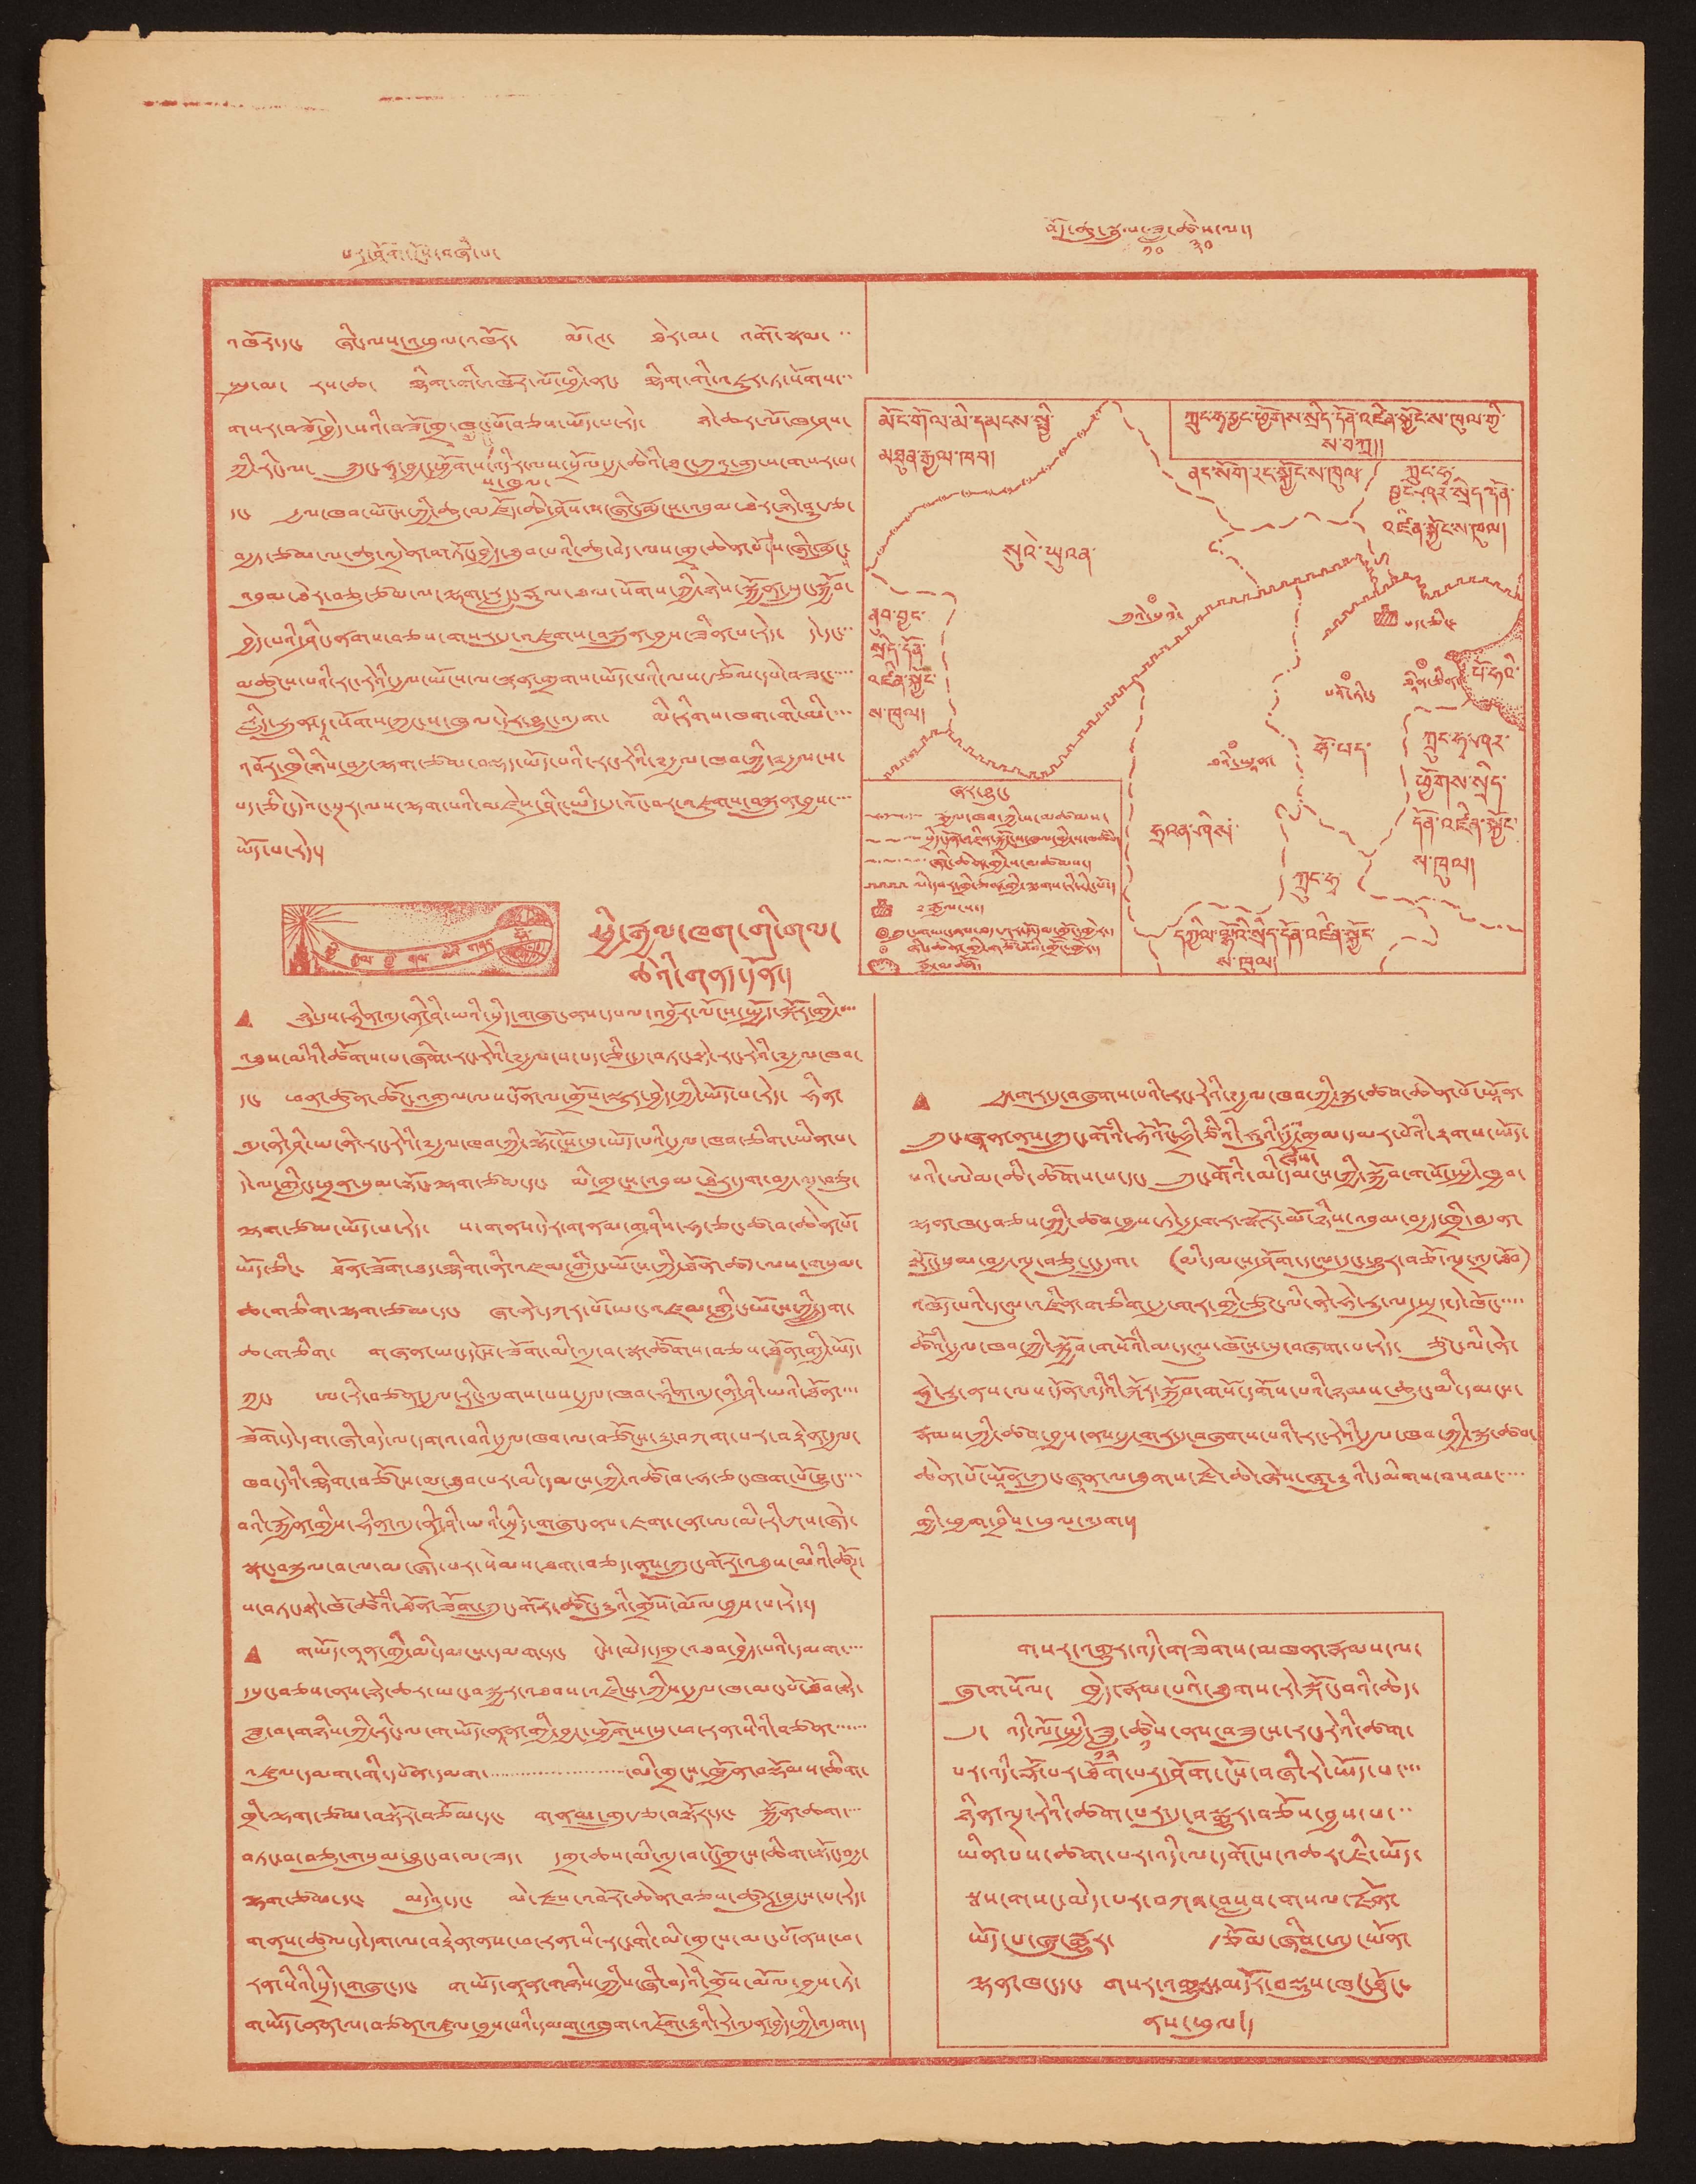པར་ཤོག་ངོས་བཞི་པ་ བོད་ཆུ་སྦྲུལ་ཟླ་
༡༠
ཚེས་
༣༠
ལ་།
འཁོར་དང་ ཞིང་ལས་འཕྲུལ་འཁོར་ མོ་ཊ་ ཐེར་མ་ འགོ་སྣམ་་་
སྤུ་མ་ རས་ཆ་ གྷིག་གི་འཁོར་ལོ་ཕྱི་ནང་ གྷིག་གི་འཇུར་ཏ་སོགས་་་
གསར་བཟོ་བྱེད་པའི་བཟོ་གྲྭ་ཁང་པོ་བཅས་ཡོད་པ་རེད་ ཉེ་ཆར་ལོ་ཁ་ཤས་
ཀྱི་རིང་ལ་ ཀྲུང་ཧྭ་བྱང་ཕྱོགས་
ས་ཁུལ་
འདིར་ལས་སྲོལ་རྒྱ་ཆེའི་ཐང་ཀུའུ་གྲུ་ས་གསར་པ་
དང་ རྒྱལ་ཁབ་ཡོངས་ཀྱི་ཆུ་མཛོད་ཆེ་ཤོས་ས་ཞིང་རྨུངས་འབུམ་ཐེར་ཉི་ཤུ་རྩ་
བརྒྱད་ཙམ་ལ་ཆུ་འདྲེན་གཏོང་བྱེད་ཐུབ་པའི་ཆུ་བེད་ལས་གྲྭ་ཆེན་པོ་།ས་ཞིང་རྨུང་
ས
འབུམ་ཐེར་བཅུ་ཙམ་ལ་ལྷག་རླུང་རྡུལ་ཐལ་སོགས་ཀྱི་ཉེས་སྐྱོན་སྲུང་སྐྱོབ་
བྱེད་པའི་ཤིང་ནགས་བཅས་གསར་དུ་འཛུགས་བསྐྲུན་བྱས་ཟིན་པ་རེད་ དེ་དང་་་
མཚུངས་པའི་རང་རེའི་རྒྱལ་ཡོངས་ལ་སྙན་གྲགས་ཡོད་པའི་ལས་རྩོལ་དཔེ་བཟང་་་་་
རླིད་ཧྲུན་དཱ་སོགས་ཀྱང་ས་ཁུལ་དེར་བྱུང་འདུག་ མི་རིགས་ཁག་གི་མི་་་་
འབོར་ཁྲི་ཉིས་བརྒྱ་ལྷག་ཙམ་བསྡད་ཡོད་པའི་རང་རེའི་༸རྒྱལ་ཁབ་ཀྱི་༸རྒྱལ་ས་
པད་ཅིང་དེའང་སྔར་ལས་ལྷག་པའི་མཛེས་ཤིང་ཡིད་དུ་འོང་བར་འཛུགས་བསྐྲུན་བྱས་་་་
ཡོད་པ་རེད་།
ཕྱི་རྒྱལ་གྱི་གལ་ཆེའི་གནད་དོན་
ཕྱི་རྒྱལ་ཁག་གི་གལ་
ཆེའི་གནད་དོན་།
• ཉེ་དུས་ཧིན་འདུ་ནི་ཤི་ཡའི་སྲིད་གཞུང་ནས་དཔལ་འབྱོར་ལོངས་སྤྱོད་སྐོར་གྱི་་་་
འཐུས་མིའི་ཚོགས་པ་ཞིག་རང་རེའི་༸རྒྱལ་ས་པད་ཅིང་དུ་བཏང་སྟེ་རང་རེའི་༸རྒྱལ་ཁབ་
དང་ ཕན་ཚུན་ཚོང་འགྲུལ་ལས་དོན་ལ་གྲོས་སྡུར་བྱེད་ཀྱི་ཡོད་པ་རེད་ ཧིན་
འདུ་ནི་ཤི་ཡ་ནི་རང་རེའི་༸རྒྱལ་ཁབ་ཀྱི་ལྷོ་ངོས་སུ་ཡོད་པའི་རྒྱལ་ཁབ་ཅིག་ཡིན་པ་
དེ་ལ་གླིང་ཕྲན་སུམ་སྟོང་ལྷག་ཙམ་དང་ མི་གྲངས་འབུམ་ཐེར་དྲུག་བརྒྱ་ལྔ་བཅུ་
ལྷག་ཙམ་ཡོད་པ་རེད་ ས་གནས་དེར་གནམ་གཤིས་ཧ་ཅང་ཚ་བ་ཆེན་པོ་
ཡོད་ཅིང་ ཐོན་ཟོག་ཐས་གྷིག་ནི་འཛམ་གླིང་ཡོངས་ཀྱི་ཐོན་ཚད་ལས་གསུམ་
ཆ་གཅིག་ལྷགག་ཙམ་དང་ ཞ་ནེ་དཀར་པོ་ཡང་འཛམ་གླིང་ཡོངས་ཀྱི་དྲུག་
ཆ་གཅིག་ གཞན་ཡང་དངོས་ཟོག་མི་འདྲ་བ་སྣ་ཚོགས་བཅས་ཐོན་གྱི་ཡོད་
ཀྱང་ ཨ་རི་བཙན་རྒྱལ་རིང་ལུགས་པས་རྒྱལ་ཁབ་ཧིན་འདུ་ནི་ཤི་ཡའི་ཐོན་་་་
ཟོག་དེ་དག་ཞི་བདེ་ལ་དགའ་བའི་རྒྱལ་ཁབ་ལ་བཙོངས་རྒྱུ་བཀག་པར་བརྟེན་རྒྱལ་
ཁབ་དེའི་གྷིག་བཙོངས་མ་ཐུབ་པར་མི་དམངས་ཀྱི་འཚོ་བ་ཧ་ཅང་ཁག་པོ་བྱུང་་་་
བའི་རྐྱེན་གྱིས་ཧིན་འདུ་ནི་ཤི་ཡའི་སྲིད་གཞུང་ནས་ཇག་ངན་ཨ་མི་རི་ཀས་ཞེད་
སྣང་བསྐུལ་བ་ལ་མ་ཞེད་པར་སེམས་ཐག་བཅད་ནས་ཀྲུང་གོར་འཐུས་མིའི་ཚོཊ་
པ་བཏང་སྟེ་ཁོང་ཚོའི་ཐོན་ཟོག་ཀྲུང་གོར་ཚོང་རྒྱུའི་གྲོས་མོལ་བྱས་པ་རེད་།
• གཡོད་ནཱན་གྱི་མི་དམངས་དམག་དང་ ངེས་མེད་དགྲ་འཐབ་བྱེད་པའི་དམག་་་་
དཔུང་བཅས་ནས་ཉེ་ཆར་ཡང་བསྐྱར་འཐབས་འཛིངས་ཀྱིས་རྒྱལ་ཁ་མང་པོ་ཐོབ་སྟེ་
ཟླ་བ་གཉིས་ཀྱི་རིང་ལ་གཡོད་ནཱན་གྱི་བྱང་ཕྱོགས་སུ་ཕ་རན་སིའི་བཙན་་་་་་་
འཛུལ་དམག་གི་དཔོན་དམག་་་་་་་་་་་་་་་་་་་་་་་་མི་གྲངས་ཁྱོན་བསྡོམས་ཆིག་
ཁྲི་ལྷག་ཙམ་བསྟོར་བཅོམ་དང་ གནམ་གྲུ་རྩ་བསྟོར་དང་ སྐྱོན་ཆག་་་་
བཏང་བ་བཅུ་གསུམ་བྱུང་བ་མ་ཟད་ དགྲ་ཆས་མི་འདྲ་བ་ངོ་གྲངས་ཆིག་སྟོང་བརྒྱ་
ལྷག་ཙམ་དང་ མདེའུ་དང་ མེ་རྫས་འབོར་ཆེན་བཅས་ཚུར་བླངས་པ་རེད་
གནས་ཚུལ་དེ་དག་ལ་བརྟེན་ནས་ཕ་རན་སི་རང་གི་མི་གྲངས་མང་པོ་ནས་ཕ་
རན་སིའི་སྲིད་གཞུང་དང་ གཡོད་ནཱན་གཉིས་ཀྱིས་ཞི་བདེའི་གྲོས་མོལ་བྱས་ཏེ་
གཡོད་ནན་ལ་བཙན་འཛུལ་བྱས་པའི་དམག་འཁྲུག་འཇོག་རྒྱུའི་རེ་འདུན་བྱེད་ཀྱི་འདུག་།
ཀྲུང་ཧྭ་བྱང་ཕྱོགས་སྲིད་དོན་འཛིན་སྐྱོང་ས་ཁུལ་གྱི་
ས་བཀྲ།།
མོང་གོལ་མི་དམངས་སྤྱི་
མཐུན་རྒྱལ་ཁབ།
ནང་སོག་རང་སྐྱོང་ས་ཁུལ་
ཀྲུང་ཧྭ་
བྱང་ཤར་སྲིད་དོན་
འཛིན་སྐྱོང་ས་ཁུལ།
ནུབ་བྱང་
སྲིད་དོན་
འཛིན་སྐྱོང་
ས་ཁུལ།
སུའེ་ཡུའན་
ཀུའེ་སུའེ་
པད་ཅིང་
པོ་ཧའི་
ཐཱིན་ཅིན་
པའོ་ཏིང་
ཧོ་པད་
ཐའི་ཡཱུན་
ཀྲུང་ཧྭ་ཤར་
ཕྱོགས་སྲིད་
དོན་འཛིན་སྐྱོང་
ས་ཁུལ།
ཧྲའན་ཤིས་
ཀྲུང་ཧྭ་
དཀྱིལ་ལྷོའི་སྲིད་དོན་འཛིན་སྐྱོང་
ས་ཁུལ།
ཞར་བྱུང་
རྒྱལ་ཁབ་ཀྱི་ས་མཚམས་
སྲིད་དོན་འཛིན་སྐྱོང་ས་ཁུལ་གྱི་ས་མཚཾས་
ཞིང་ཆེན་གྱི་ས་མཚམས་།
ལི་དབར་གྲི་ཅན་གྱི་ལྕགས་རི་རིང་པོ་།
༸རྒྱལ་ས་།
ཀྲུང་གཡང་ནས་ཐད་ཀར་དོ་དམ་གྲོང་ཁྱེར་།
ཞིང་ཆེན་གྱི་གཙོ་བོའི་གྲོང་ཁྱེར་།
རྒྱ་མཚོ་
• རྒྱ་གར་དུ་བཞུགས་པའི་རང་རེའི་༸རྒྱལ་ཁབ་ཀྱི་སྐུ་ཚབ་ཆེན་པོ་ཡཱོན་
ཀྲུང་ཞཱན་ནས་ཀྲུང་གོའི་ཧོའོང་ཧྲི་ཙིའི་ཧུའི་
ཞེས་
རྒྱ་གྲམ་དམར་པོའི་རྟགས་ཡོད་
པའི་ཨེམ་ཆི་ཚོགས་པ་དང་ ཀྲུང་གོའི་མི་དམངས་ཀྱི་སྐྱོབ་གསོ་སྤྱི་ཁྱབ་
ལྷན་ཁང་བཅས་ཀྱི་ཚབ་བྱས་ཏེ་རྒྱ་གར་སྒོར་མོ་ཉིས་འབུམ་བརྒྱད་ཁྲི་བདུན་
སྟོང་སུམ་བརྒྱ་ལྔ་བཅུ་ང་དྲུག་ (མི་དམངས་ཤོག་དངུལ་དུང་ཕྱུར་བཅོ་ལྔ་འདྲ་ཐོབ་)
འཁོད་པའི་དངུལ་འཛིན་གཅིག་རྒྱ་གར་གྱི་ཙུང་ལི་ནེ་ཧེ་རུ་ལ་སྤྲད་དེ་ཁོང་་་་་
ཚོའི་རྒྱལ་ཁབ་ཀྱི་སྐྱོབ་གསོའི་མ་དངུལ་ཁོངས་སུ་བཞག་པ་རེད་ ཙུང་ལི་ནེ་
ཧེ་རུ་ནས་ལས་དོན་འདིའི་སྐོར་སྐྱོབ་གསོ་དགོས་པའི་ཉམས་ཆུང་མི་དམངས་
རྣམས་ཀྱི་ཚབ་བྱས་ནས་རྒྱ་གར་དུ་བཞུགས་པའི་རང་རེའི་རྒྱལ་ཁབ་ཀྱི་སྐུ་ཚབ་
ཆེན་པོ་ཡཱོན་ཀྲུང་ཞཱན་ལ་ཐུགས་རྗེ་ཆེ་ཞེས་ཞུ་རྒྱུའི་དམིགས་བསམ་་་་་
གྱི་ཕྱག་བྲིས་ཕུལ་འདུག་།
གསར་འགྱུར་འདི་གཟིགས་མཁན་རྣམས་ལ་
ཞུ་གསོལ་ ཁྱེད་རྣམ་པའི་ཐུགས་རེ་སྐོང་བའི་ཆེད་
དུ་ འདི་ལོ་སྤྱི་ཟླ་
༡༢
ཚེས་
༡
ནས་བཟུངས་རང་རེའི་ཚག་
པར་འདི་རྡོ་པར་ཐོག་པར་ཤོག་ངོས་བཞི་རེ་ཡོད་པ་་་་
ཉིན་ལྔ་རེའི་ཚག་པར་དུ་བསྒྱུར་བཅོས་བྱས་པ་་་
ཡིན་པས་ཚག་པར་འདི་ལ་དགོངས་འཆར་ཇི་ཡོད་
སྦས་གསང་མེད་པར་བཀའ་བསླབ་གསལ་རྗོན་
ཡོད་པ་ཞུ་རྒྱུར་ རྩོམ་ཞིབ་ཨུ་ཡོན་
ལྷན་ཁང་དང་ གསར་འགྱུར་མདོར་བསྡུས་ཁང་ཐོུང་
ནས་ཕུལ་།
